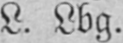L. Lbg.
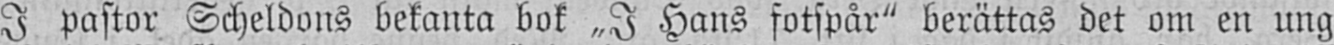I pastor Scheldons bekanta buk „I Hans fotspår" berättas det om en ung
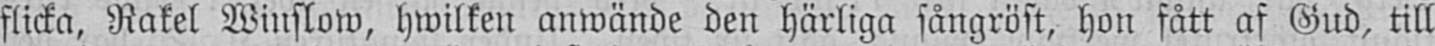flicka, Rakel Winslow, hwilken anwände den härliga sångröst, hon fått af Gud, till
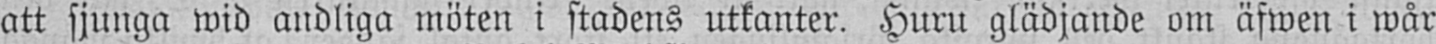att sjunga wid andliga möten i stadens utkanter. Huru glädjande om äfwen i wår
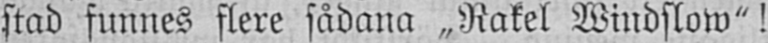stad funnes flere sådana „Rakel Windslow"!
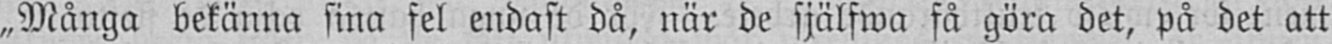„Många bekänna sina fel endast då, när de själfwa få göra det, på det att
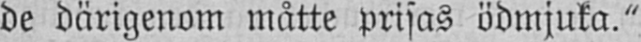de därigenom måtte prisas ödmjuka."
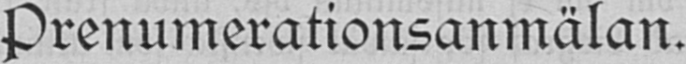Prenumerationsanmälan.
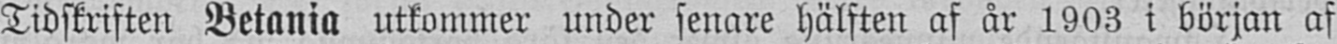Tidskriften Betania utkommer under senare hälften af år 1903 i början af
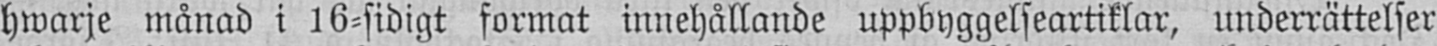hwarje månad i l6-sidigt format innehållande uppbyggelseartiklar, underrättelser
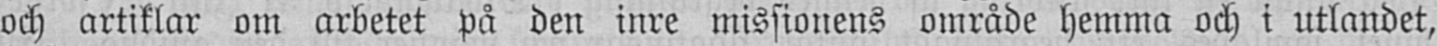och artiklar om arbetet på den inre missionens område hemma och i utlandet,
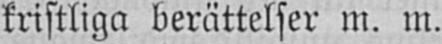kristliga berättelser m. m.
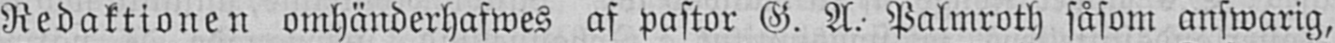Redaktionen omhänderhafwes af pastor G. A. Palmroth såsom answarig,
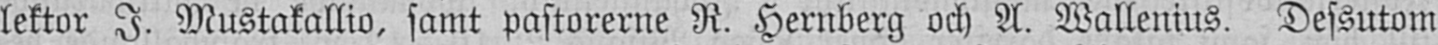lektor I. Mustakallio, samt pastorerne R. Hernberg och A. Wallenius. Dessutom
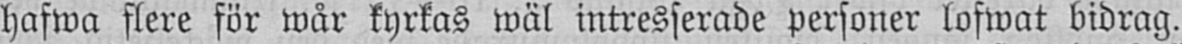hafwa flere för wår kyrkas wäl intresserade personer lofwat bidrag.
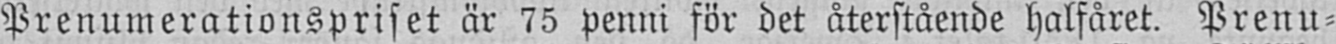Prenumerationspriset är 75 penni för det återstående halfåret. Prenu-
